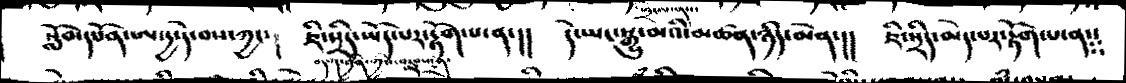སློབ་དཔོན་ཨ་དྱ་དེ་བས་ཀྱང་།    ཇི་སྲིད་ཡོད་པར་རྟོག་པ་ན་།།   དེ་ཡང་སྒྱུ་མའི་མཚན་ཉིད་མེན་།།   ཇི་སྲིད་མེད་པར་རྟོག་པ་༴༴
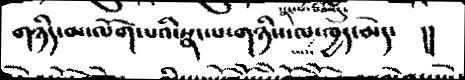གཉིད་མ་ལོག་པའི་སྣང་པ་གཉིས་ལ་ཁྱད་མེད་       །།
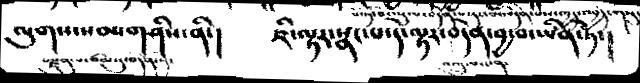ལུགས་སམ་གཤིས་ནི་།   ཇི་ལྟར་སྣང་པ་དེ་ལྟར་བདེན་བྱ་བ་ཡིན་ཏེ་།
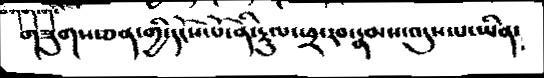གཟུགས་ཅན་གྱི་དངོས་པོ་ནི་རྡུལ་ཕྲ་རབ་རྣམས་འདུས་པ་ཡིན་
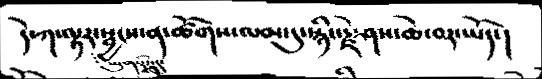དེ་ཀ་ལྟར་སྦྱངས་ན་ཚོགས་ལམ་དུ་སྙིང་རྗེ་ཤས་ཆེ་བར་ཡོད་།
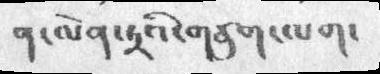ན་ལེན་ཏྲའི་གཙུག་ལག་
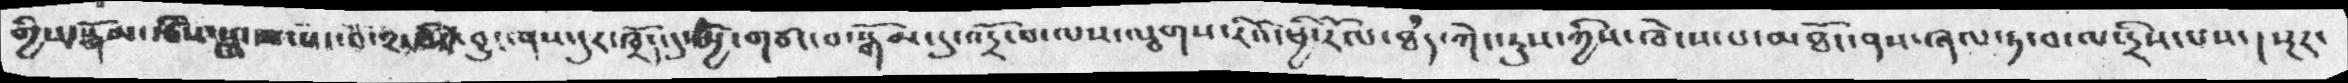གྱིས་སྒོམ་རྩིས་པདྨ་ལ་སང་བ་༢་མི་བྱུང་ནས་དུར་ཁྲོད་དུ་མྱི་གཙང་བ་སྒོམ་དུ་འདྲོ་བ་ལས་ལྕགས་རིའི་ཕྱི་རོལ་ཐམད་ཀེང་རུས་ཀྱིས་ཁེངས་པ་མཐོང་ནས་ཞལ་ཏ་བ་ལ་དྲིས་པས་། སྔར་
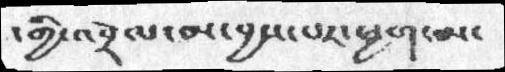། གྱི་འབྲེལ་བས་བྱས་པར་ཕྱག་མ་
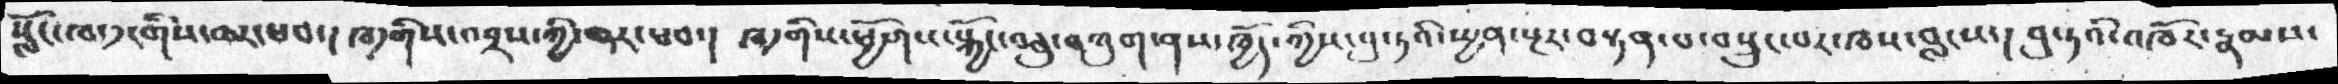སློང་ཁ་༡་གིས་ཆར་ཕབ། ཁ་༡་གིས་འབྲས་ཀྱི་ཆར་ཕབ། ཁ་༡་གིས་ཕྱོགས་སྐྱོང་བཅུ་བཀུག་ནས་ཁྱོད་ཀྱིས་སུ་ཏའི་སྤྱན་སྟར་བསྟན་པ་བསྲུང་བར་ཁས་བླངས། པུ་ཏའི་འཁོར་རྣམས་
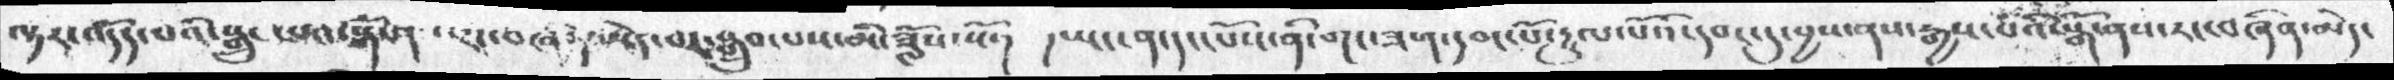ལྟར་འདོད་པའི་སྒྲུང་པ༤་སྒོ་ནས་རང་བཞིན་མེད་པར་སྒྲུབ་པས་མི་ཟློས་སོ་།   ། ཡང་ན་དང་པོས་ནི་གང་ཟག་དབང་པོ་རྟུལ་པོའི་དབང་དུ་བྱས་ནས་རྒྱས་པའི་སྒོ་ནས་རང་བཞིན་མེད་
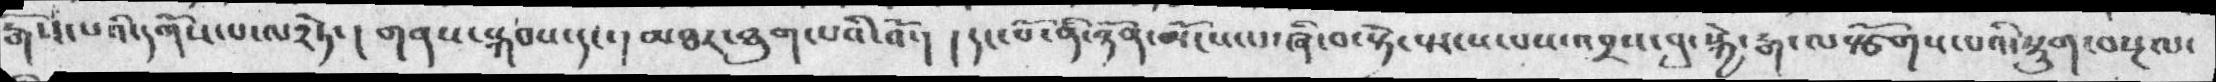རྒོས་པའི་དགོས་པ་ལ་༢ཏེ་། གནས་སྐབས་དང་། མཐར་ཐུག་པའི་བོ་། །དང་པོ་ནི་ཉོན་མོངས་པ་ཞི་བ་རྟོང་སངས་འབྲས་བུ་སྐྱེ་རྒ་ལ་སྩོགས་པའི་སྡུག་བསྔལ་
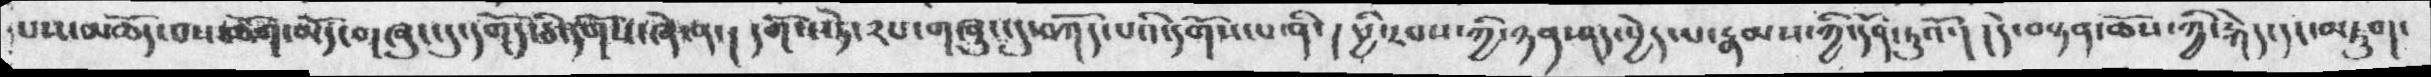པས་མཆོད་བས་ཆོག་མོད་གཞུང་དུ་དགོད་ཅི་དགོས་ཞེ་ན་་།   དགོས་ཏེ་རས་གཞུང་དུ་བཀོད་པའི་དགོས་པ་ནི་།   ཕྱི་རབས་ཀྱི་ཉན་ཤད་བྱེད་པ་རྣམས་ཀྱི་དོན་ཏུའོ་།  །དེ་བསྟན་ཆོས་ཀྱི་རྐེད་དང་མཇུག་
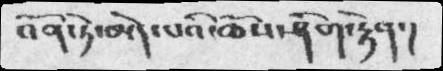འོན་ཏེ་མེད་པའི་ཆོས་ཤེས་ཤིག་རྟེན་།
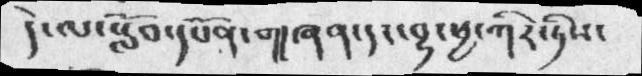དེ་ལ་སློབ་དཔོན་གདཞན་དང་བྷ་ཕྱ་ཀིར་ཏིས་
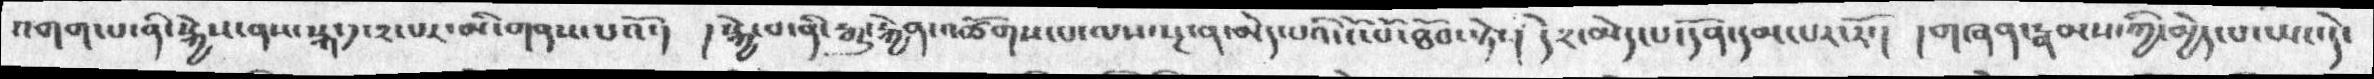འགག་༷པ་ནི་སྐྱེས་ནས་སྐད་༡་༢་པར་མི་གནས་པའོ་། །སྐྱེ་བ་ནི་རྒྱུ་རྐྱེན་འཚོགས་པ་ལས་སྔ་ན་མེད་པའི་ངོ་བོ་ཐོབ་སྟེ་། དེ༢་མེད་པ་དོན་དམ་པར་རོ་། །གཞན་རྣམས་ཀྱི་མྱེད་པ་ཡང་དེ་
